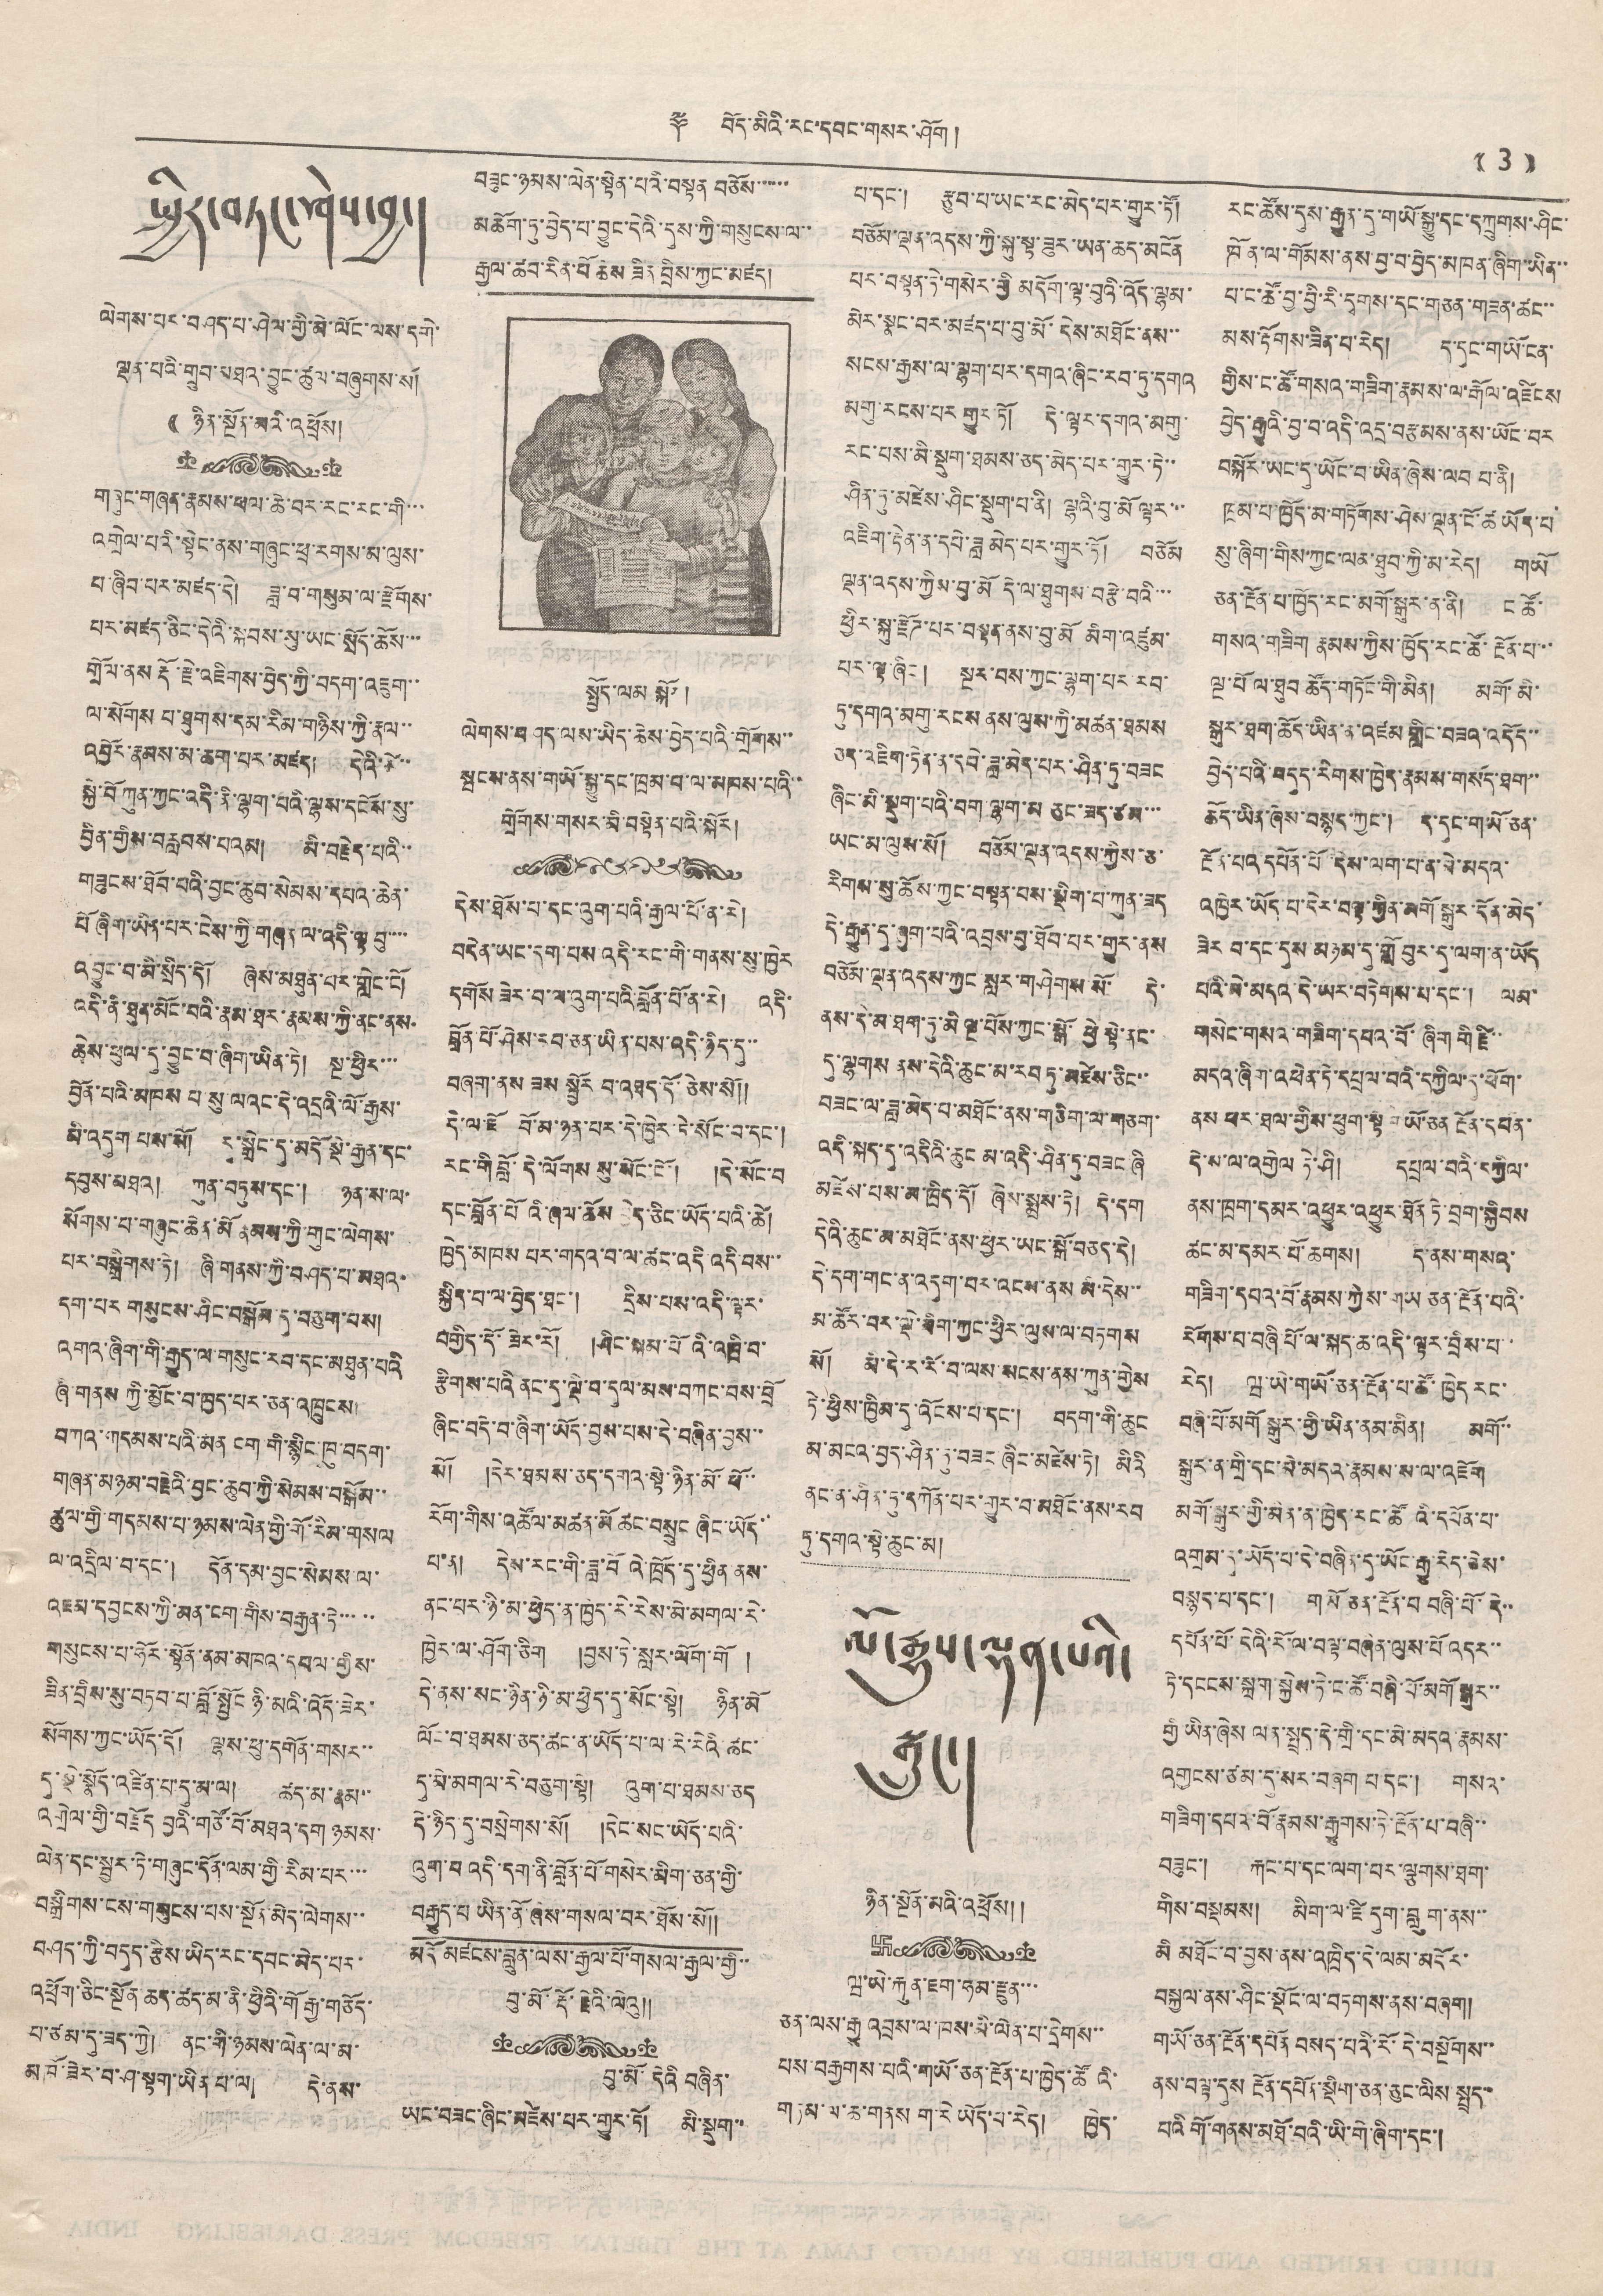༈ བོད་མིའི་རང་དབང་གསར་ཤོག ། (( 3 ))
སྤྱིར་བཏང་ཤེས་བྱ།
ལེགས་པར་བཤད་པ་ཤེལ་གྱི་མེ་ལོང་ལས་དགེ་
ལྡན་པའི་གྲུབ་མཐའ་བྱུང་ཚུལ་བཞུགས་སོ།
(( ཉིན་སྔོན་མའི་འཕྲོས།
གཞུང་གཞན་རྣམས་ཕལ་ཆེ་བ་རང་རང་གི་་་
འགྲེལ་པའི་སྟེང་ནས་གཞུང་ཕྲ་རགས་མ་ལུས་
པ་ཞིབ་པར་མཛད་དེ། ཟླ་བ་གསུམ་ལ་རྫོགས་
པར་མཛད་ཅིང་དེའི་སྐབས་སུ་ཡང་སྲོད་ཆོས་་་
གྲོལ་ནས་རྡོ་རྗེ་འཇིགས་བྱེད་ཀྱི་བདག་འཇུག་་
ལ་སོགས པ་ཐུགས་དམ་རིམ་གཉིས་ཀྱི་རྣལ་་
འབྱོར་རྣམས་མ་ཆག་པར་མཛད། དེའི་ཚེ་་
སྐྱོ་བོ་ཀུན་ཀྱང་འདི་ནི་ལྷག་པའི་ལྷས་དངོས་སུ་
བྱིན་གྱིས་བརླབས་པའམ། མི་བརྗེད་པའི་་
གཟུངས་ཐོབ་པའི་བྱང་ཆུབ་སེམས་དཔའ་ཆེན་
པོ་ཞིག་ཡིན་པར་ངེས་ཀྱི་གཞན་ལ་འདི་ལྟ་བུ་་་་
འབྱུང་བ་མི་སྲིད་དོ། ཞེས་མཐུན་པར་གླེང་ངོ།
འདི་ནི་ཐུན་མོང་བའི་རྣམ་ཐར་རྣམས་ཀྱི་ནང་ནས་
ཆེས་ཕུལ་དུ་བྱུང་བ་ཞིག་ཡིན་ཏེ། སྔ་ཕྱིར་་
བྱོན་པའི་མཁས པ་སུ་ལའང་དེ་འདྲའི་ལོ་རྒྱས་
མི་འདུག པས་སོ། རྭ་སྒྲེང་དུ་མདོ སྡེ་རྒྱན་དང་
དབུས་མཐའ། ཀུན་བཏུས་དང་། ཉན་ས་ལ་
སོགས་པ་གཞུང་ཆེན་མོ་རྣམས་ཀྱི་གུང་ལེགས་
པར་བསྒྲིགས་ཏེ། ཞི་གནས་ཀྱི་བཤད་པ་མཐའ་
དག་པར གསུངས་ཤིང་བསྒོམ་དུ་བཅུག་པས།
འགའ་ཞིག་གི་རྒྱུད་ལ་གསུང་རབ་དང་མཐུན་པའི
ཞི གནས ཀྱི་མྱོང་བ་ཁྱད་པར་ཅན་འཁྲུངས།
བཀའ་གདམས་པའི་མན ངན་གི་སྙིང་ཁུ་བདག་
གཞན་མཉམ་བརྗེའི་བྱང་ཆུབ་ཀྱི་སེམས་བསྒོམ་་
ཚུལ་གྱི་གདམས་པ་ཉམས་ལེན་གྱི་གོ་རིམ་གསལ
འ་འདྲིལ་བ་དང་། དོན་དམ་བྱང་སེམས་ལ་
འཇམ་དབྱངས་ཀྱི་མན་ངག་གིས་བརྒྱན་ཏེ་་་་་
གསུངས་པ་ཧོར་སྟོན་ནམ་མཁའ་དཔལ་གྱིས་
ཟིན་བྲིས་སུ་བཏབ་པ་བློ་སྦྱོང་ཉི་མའི་འོད་ཟེར་
སོགས་ཀྱང་ཡོད་དོ། ལྷས་ཕུ་དགོན་གསར་་
དུ་སྡེ་སྣོད་འཛིན་པ་དུ་མ་ལ། ཚད་མ་རྣམ་་
འགྲེལ་གྱི་བརྗོད བྱའི་གཙོ་བོ་མཐའ་དག ཉམས་
ལེན་དང་སྦྱར་ཏེ་གཞུང་དོན་ལམ་གྱི་རིམ་པར་་་
བསྒྲིགས་ངས་གསུངས་པས་སྔོན་མེད་ལེགས་་
བཤད་ཀྱི་བདུད་རྩིས་ཡིད་རང་དབང་མེད་པར་
འཕྲོག་ཅིང་སྔོན་ཆད་ཚད་མ་ནི་ཕྱིའི་གོ་རྒྱ་གཅོད་
པ་ཙམ་དུ་ཟད་ཀྱི། ནང་གི་ཉམས་ལེན་ལ་མ་
མ་ཁོ་ཟེར་བ་ཤ་སྟག་ཡིན་ལ། དེ་ནས་
བཟུང་ཉམས་ལེན་སྟེན་པའི་བསྟན བཅོས་་་་་་
མཆོག་ཏུ་བྱེད་པ་བྱུང་དེའི་དུས་ཀྱི་གསུངས་ལ་
རྒྱལ་ཚབ་རིན་པོ ཆེས་ཟིན་བྲིས་ཀྱང་མཛད།
སྤྱོད་ལམ་སྐོར།
ལེགས་བཤད་ལས་ཡོད་ཆེས་བྱེད་པའི་གྲོགས་་
སྦངས་ནས་གཡོ་སྒྱུ་དང་ཁྲམ་པ་ལ་མཁས་པའི་་
གྲོགས་གསར་མི་བསྟེན་པའི་སྐོར།
དེས་ཐོས་པ་དང་འུག་པའི་རྒྱལ་པོ་ན་རེ།
བདེན་ཡང་དག་པས་འདི་རང་གི་གནས་སུ་ཁྱེར
དགོས ཟེར་བ་ལ་འུག་པའི་བློན་པོ་ན་རེ། འདི་
བློན་པོ་ཤེས་རབ་ཅན་ཡིན་པས་འདི་ཉིད་དུ་
བཞག་ནས ཟས སྦྱོར བ་འཐད་དོ་ཅེས་སོ།།
དེ་ལ་ཇོ བོ་མ་ཉན་པར་དེ་ཁྱེར་ཏེ་སོང་བ་དང་།
རང་གི་བློ་དེ་ལོགས་སུ་སོང་ངོ་། །དེ་སོང་བ
དང་བློན་པོའི་ཞལ་ཆོས བྱེད་ཅིང་ཡོད་པའི་ཚེ།
ཁྱེད་མཁས པར་གདའ་བ་ལ་ཚང་འདི འདི་བས་་
སྐྱིད་པ་ལ་བྱེད་ཐང་། དྲིས་པས་འདི་ལྟར་
བགྱིད་དོ་ཟེར་རོ། །ཤིང་སྐམ་པོའི་འཁྲི་བ་
རྩིགས་པའི ནང་དུ་ལྡི་བ་དུལ་མས་བཀང་བས་བྲོ
ཞིང་བདེ་བ་ཞིག་ཡོད་བྱས་པས་དེ་བཞིན་བྱས་་
སོ། །དེར་ཐམས་ཅད་དགའ་སྟེ་ཉིན་མོ་ཕོ་་
རོག་གིས་འཚོལ་མཚན་མོ ཚང་བསྲུང ཞིང་ཡོད་་
པ་ན། དེས་རང་གི་ཟླ་བོའི་ཁྲོད་དུ་ཕྱིན་ནས་
ནང་པར་ཉི་མ་ཕྱེད་ན་ཁྱེད་རེ་རེས་མེ་མགལ་རེ་
ཁྱེར་ལ་ཤོག་ཅིག །བྱས་ཏེ་སླང་ལོག་གོ །
དེ་ནས་སང་ཉིན་ཉི་མ་ཕྱེད་དུ་སོང་སྟེ། ཉིན་མོ
ལོང་བ་ཐམས་ཅད་ཚང་ན་ཡོད་པ་ལ་རེ་རེའི་ཚང་
དུ་མེ་མགལ་རེ་བཅུག་སྟེ། འུག་པ་ཐམས་ཅད
དེ་ཉིད་དུ་བསྲེགས་སོ། །དེང་སང་ཡོད་པའི་
འུག་པ་འདི་དག་ནི་བློན་པོ་གསེར་མིག་ཅན་གྱི་
བརྒྱུད་པ ཡིན་ནོ་ཞེས་གསལ་བར་ཐོས་སོ།།
མདོ མཛངས་བླུན་ལས་རྒྱལ་པོ་གསལ་རྒྱལ་གྱི་་
བུ་མོ་རྡོ་རྗེའི་ལེའུ།།
བུ་མོ་དེའི བཞིན་
ཡང་བཟང་ཞིང་མཛེས་པར་གྱུར་ཏོ། མི་སྡུག་་
པ་དང་། རྩུབ་པ་ཡང་རང་མེད་པར་གྱུར་ཏོ།
བཅོམ་ལྡན་འདས་ཀྱི་སྐུ་སྟ་ཟུར་ཡན་ཆད་མངོན
པར་བསྟན་ཏེ་གསེར་གྱི མདོག་ལྟ་བུའི་འོད་ལྷམ་
མེར་སྣང་བར་མཛད་པ་བུ་མོ་དེས་མཐོང་ནས་་
སངས་རྒྱས་ལ་ལྷག་པར་དགའ་ཞིང་རབ་ཏུ་དགའ
མགུ་རངས་པར གྱུར་ཏོ། དེ་ལྟར་དགའ་མགུ་
རང་བས་མི་སྡུག་ཐམས་ཅད་མེད་པར་གྱུར་ཏེ་་
ཤིན་ཏུ་མཛེས་ཤིང་སྡུག་པ་ནི། ལྷའི་བུ་མོ ལྟར་་་
འཇིག་རྟེན་ན་དཔེ་ཟླ མེད་པར་གྱུར་ཏོ། བཅོམ
ལྡན་འདས་ཀྱིས་བུ་མོ དེ་ལ་ཐུགས་བརྩེ་བའི་་་
ཕྱིར་སྐུ་རྫོཌ་པར་བསྟན་ནས་བུ་མོ མིག་འཛུམ་
པར་ལྟ་ཞིང་། སྔར་བས་ཀྱང་ལྷག་པར་རབ་
ཏུ་དགའ་མགུ་རངས ནས་ལུས་ཀྱི་མཚན་ཐམས
ཅད་འཇིག་ཏེན་ན་དབེ་ཟླ་མེད་པར་ཤིན་ཏུ་བཟང
ཞིང་མི་སྡུག་པའི་བག་ལྷག་མ ཅུང་ཟད་ཙམ་་་
ཡང་མ་ལུས་སོ། བཅོམ་ལྡན་འདས་ཀྱིས་ཅ་
རིགས་སུ་ཆོས་ཀྱང་བསྟན་པས་སྡིག་པ་ཀུན་ཟད
དེ་རྒྱུན་དུ་ཞུག་པའི་འབྲས་བུ་ཐོབ་པར་གྱུར་ནས་
བཅོམ་ལྡན་འདས་ཀྱང་སླར་གཤེགས་སོ་ དེ་
ནས་དེ་མ་ཐག་ཏུ་མི ལྔ་པོས་ཀྱང་སྒོ་ཕྱེ སྟེ་ནང་
དུ་ལྷགས ནས་དེའི་ཆུང་མ་རབ ཏུ་མཛེས་ཅིང་་
བཟང་ལ་ཟླ་མེད་པ་མཐོང་ནས་གཅིག་ལ་གཅག་
འདི་སྐད་དུ་འདིའི་ཆུང མ་འདི་ཤིན་ཏུ་བཟང་ཞི
མཛེས་པས་མ་ཁྲིད་དོ། ཞེས་སྨྲས་ཏེ། དེ་དག
དེའི་ཆུང་མ་མཐོང་ནས་ཕྱིར་ཡང་སྒོ་བཅད་དེ།
དེ་དག་གང་ན་འདུག་བར་འངས་ནས མ་དེས་
མ་ཚོར་བར་ལྡེ་ཐིག་ཀྱང་ཕྱིར་ལུས་ལ་བཏགས
སོ། མི་དེ་ར་རོ་བ་ལས་སངས་ནས་ཀུན་གྱེས
ཏེ་ཕྱིས་ཁྱིམ་དུ་འོངས་པ་དང་། བདག་གི་ཆུང
མ་མངའ་བྱད་ཤིན་ཏུ་བཟང་ཞིང་མཛེས་ཏེ། མིའི
ནང་ན་ཤིན་ཏུ་དཀོན་པར་གྱུར་བ་མཐོང་ནས་རབ
ཏུ་དགའ་སྟེ་ཆུང་མ།
ལོ་རྒྱུས་ལྡན་པའི་
སྒྲུང་།
ཉན་སྔོན་མའི་འཕྲོས།།
ཝ་ཡེ་རྐུན་ཇག་ཧམ་རྫུན་་་
ཅན་ལས་རྒྱུ་འབྲས་ལ་ཁས་མི་ལེན་པ་དྲེགས་་
པས་བརྒྱགས་པའི་གྱོ་ཅན་རྔོན་པ་ཁྱེད་ཚོའི་
གཏམ་ལ་ཆ་གནས ག་རེ ཡོད་པ་རེད། ཁྱེད་
རང་ཆོས་དུས་རྒྱུན་དུ་གཡོ་སྒྱུ་དང་དཀྲུགས་ཤིང་
ཁོན་ལ་གོམས་ནས་བྱ་བ་བྱེད་མཁན་ཞིག་ཡིན་་
པ་ང་ཚོ་བྱ་བྱི་རི་དྭགས་དང་གཅན་གཟན་ཚང་་
མས་རྟོགས་ཟིན་པོ་རེད། ད་དུང་གཡོ་ངན་
གྱིས་ང་ཚོ་གསའ་གཟིག་རྣམས་ལ་རྒོལ་འཛིངས
བྱེད་རྒྱུ་བྱ་བ་འདི་འདྲ་བརྩམས་ནས་ཡོང་བར
བསྐོར་ཡང་དུ་ཡོང་བ་ཡིན་ཞེས་ལབ པ་ནི།
ཁྲམ་པ་ཁྱོད་མ་གཏོགས་ཤེས་ལྡན་ངོ་ཚ ཡོད་པ
སུ་ཞིག་གིས་ཀྱང་ལམ་ཐུབ་ཀྱི་མ་རེད། གཡོ་
ཅན་རྔོན་པ་ཁྱོད་རང་མགོ་སྒུར་ན་ནི། ང ཚོ་
གསའ་གཟིག རྣམས་ཀྱིས་ཁྱོད་རང་ཚོ་རྔོན་པ་་་
ལྔ་པོ ལ་ཐུབ ཚོད་གཏོང་གི་མིན། མགོ་མི་
སྒུར་ཐག་ཆོད་ཡིན་ན་འཛམ གླིང་བཟའ་འདོད་་
བྱེད་པའི་བདུད་རིགས་ཁྱེད་རྣམས་གསོད་ཐག་་
ཆོད་ཡིན་ཞེས་བསྙད་ཀྱང་། ད་དུང་གཡོ་ཅན་
རྔོན་པའ དཔོན་པོ་དེས་ལག་པ་ན་མེ་མདའ་
འཁྱེར་ཡོད་པ་དེར་བསྟ་ཀྱིན་མགོ་སྒུར་དོན་མེད་
ཟེར བ་དང་དུས་མཉམ་དུ་གློ བུར་དུ་ལག་ན་ཡོད
པའི་མེ་མདའ་དེ་ཡར་བཏེགས་པ་དང་། ལམ་
གསེང་གསའ་གཟིག་དཔའ་བོ་ཞིག གི་རྗི་་
མདའ་ཞིག་འཕེན་ཏེ་དཔྲལ་བའི་དཀྱིལ་དུ་ཕོག་
ནས ཕར་ཐལ་གྱིས་ཕུག་སྟེ གཡོ་ཅན རྔོན་དཔོན་
དེ་ས་ལ་འགྱེལ ཏེ་ཤི། དཔྲལ་བའི་དཀྱིལ་
ནས་ཁྲག་དམར་འཕྱུར་ཐོན་ཏེ་བྲག་སྐྱིབས
ཚང་མ་དམར་པོ་ཆགས། ད་ནས་གསའ་
གཟིག་དཔའ་བོ་རྣམས་ཀྱིས་གཡ ཅན་རྔོན་པའི་
རོགས་བ་ཞིག་པོ་ལ་སྐད་ཆ་འདི་ལྟར་བྲིས་པ་་
རེད། ཝ་ཡེ་གཡོ་ཅན་རྔོན་པ་ཚོ་ཁྱེད རང་
བཞི་པོ་མགོ སྒུར་གྱི་ཡིན་ནམ་མིན། མགོ་་
སྒུར་ན་གྲི་དང་མེ་མདའ་རྣམས་ས་ལ་འཇོག
མགོ་སྒུར་གྱི་མིན་ན་ཁྱེད་རང་ཚོའི་དཔོན་པ་
འགྲམ་དུ་ཡོད་པ་དེ་བཞིན་དུ་ཡོང་རྒྱུ་རེད་ཅེས་
བསྙན་པ་དང་། གཡོ ཅན་རྔོན་པ བཞི་པོ་དེ་་
དཔོན་པོ་དེའི་རོ་ལོ་བལྟ་བཞིན་ལུས་པོ་འདར་་
ཏེ་དངངས་སྐྲག་སྐྱེས་ཏེ་ང་ཚོ་བཞི་པོ་མགོ་སྒུར་་
གྱི་ཡིན་ཞེས ལན་སྤྲད་དེ་གྲི་དང་མེ་མདའ་རྣམས་
འགྱངས་ཙམ་དུ་སར་བཞག པ་དང་། གསའ་
གཟིག་དཔའ་བོ་རྣམས་རྒྱུགས་ཏེ་རྔོན་པ་བཞི་་
བཟུང་། རྐང་པ་དང་ལག་པར་ལྕགས་ཐག་
གིས་བསྡམས། མིག་ལ་རྫི དུག་བླུག་ནས་་
མི མཐོང་བ་བྱས་ནས་འཁྲིད་དེ་ལམ་མདོར་
བསྐྱལ་ནས་ཤིང་སྡོང་ལ་བཏགས་ནས་བཞག།
གཡོ་ཅན་རྔོན་དཔོན བསད་པའི་རོ་དེ་བསྔོགས་་
ནས་བལྟ་དུས རྔོན་དཔོན་སྡིག་ཅན་ཅུང་ལིས སྤྲད་་
པའི གོ་གནས་མཐོ་བའི་ཡི་གེ་ཞིག་དང་།
